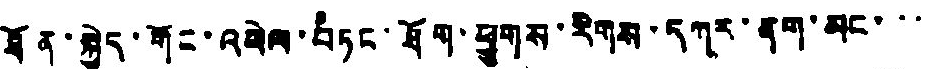ཐོན་སྐྱེད་གོང་འཕེལ་བཏང་ཐོག་ཕྱུགས་རིགས་དཀར་ནག་མང་་་
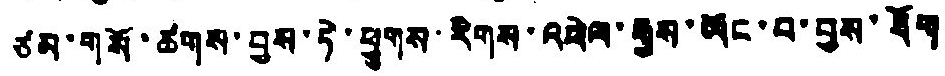ཙམ་གསོ་ཚགས་བྱས་ཏེ་ཕྱུགས་རིགས་འཕེལ་རྒྱས་མང་བ་བྱས་ཐོག
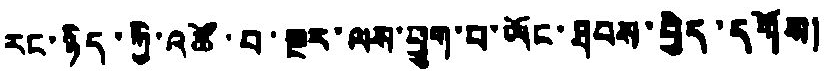རང་ཉིད་ཀྱི་འཚོ་བ་སྔར་ལས་ཕྱུག་པ་ཡོང་ཐབས་བྱེད་དགོས།
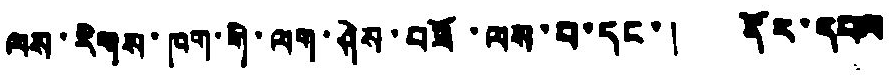ལས་རིགས་ཁག་གི་ལག་ཤེས་བཟོ་ལས་བ་དང་། ནོར་དཔལ
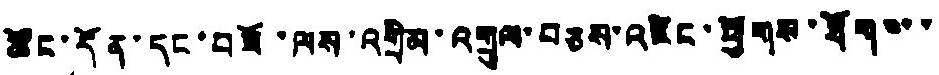ཚོང་དོན་དང་བཟོ་ལས་འགྲིམ་འགྲུལ་བཅས་འཛིང་ཕྱོགས་ཐོག་་་
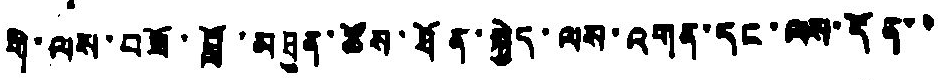གི་ལས་བཟོ་བློ་མཐུན་ཚོས་ཐོན་སྐྱེད་ལས་འགན་དང་ལས་དོན་་
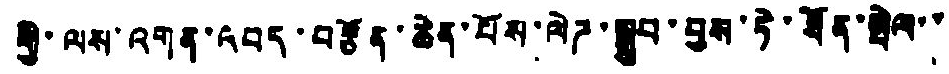གྱི་ལས་འགན་འབད་བརྩོན་ཆེན་པོས་ལེཌ་སྒྲུབ་བྱས་ཏེ་ཐོན་སྤེལ་་
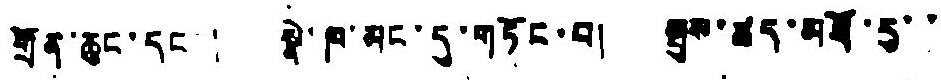གྲོན་ཆུང་དང་། སྣེ་ཁ་མང་དུ་གཏོང་བ། སྤུས་ཚད་མཐོ་རུ་་
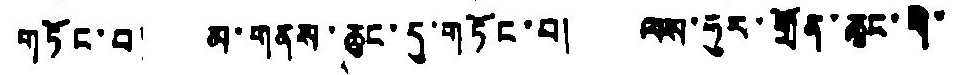གཏོང་བ། མ་གནས་ཆུང་དུ་གཏོང་བ། ལས་ཧུར་གྲོན་ཆུང་གི་
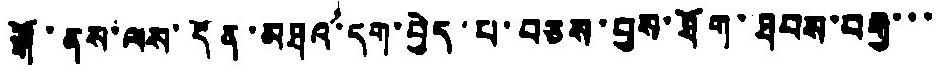སྒོ་ནས་ལས་དོན་མཐའ་དག་བྱེད་པ་བཅས་བྱས་ཐོག་ཐབས་བརྒྱ་་་
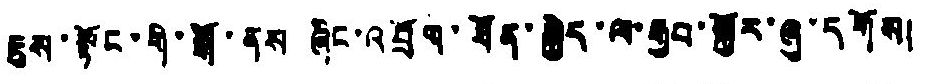ཇུས་སྟོང་གི་སྒོ་ནས ཞིང་འབྲོག་ཐོན་སྐྱེད་ལ་རྒྱབ་སྐྱོར་ཞུ་དགོས།
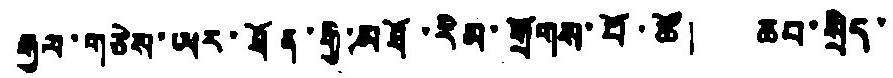རྒྱལ་གཅེས་ཡར་ཐོན་གྱི་མཐོ་རིམ་གྲོགས་པོ་ཚོ། ཆབ་སྲིད་
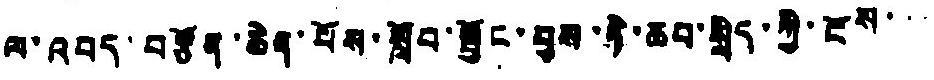ལ་འབད་བརྩོན་ཆེན་པོས་སློབ་སྦྱོང་བྱས་ཏེ་ཆབ་སྲིད་ཀྱི་ངོས་་་
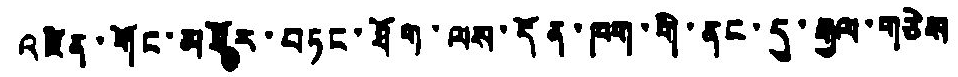འཛིན་གོང་མཐོར་བཏང་ཐོག་ལས་དོན་ཁག་གི་ནང་དུ་རྒྱལ་གཅེས
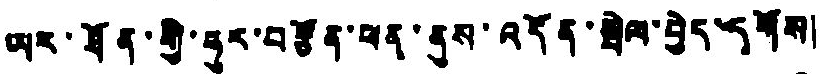ཡར་ཐོན་གྱི་ཧུར་བརྩོན་ཕན་ནུས་འདོན་སྤེལ་བྱེད་དགོས།
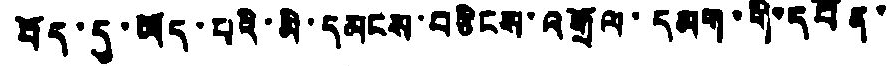བོད་དུ་ཡོད་པའི་མི་དམངས་བཅིངས་འགྲོལ་དམག་གི་དཔོན་
